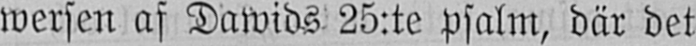wersen af Dawids 25:te psalm, där det
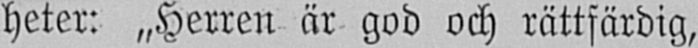heter: „Herren är god och rättfärdig,
